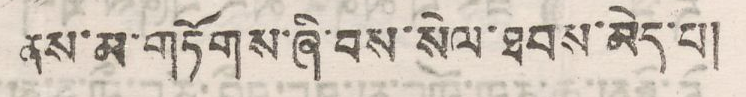ནས་མ་གཏོགས་ཞི་བས་སེལ་ཐབས་མེད་པ།
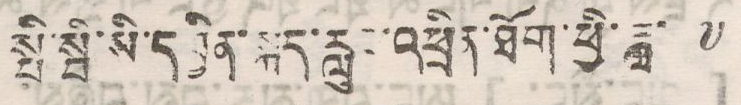སྤི་སྦི་སི་དབྱིན་སྐད་རླུང་འཕྲིན་ཐོག་ཕྱི་ཟླ་ ༧
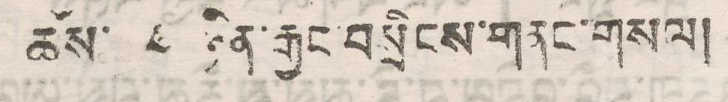ཚེས་ ༨ ཉིན་རྒྱང་བསྲིངས་གནང་གསལ།
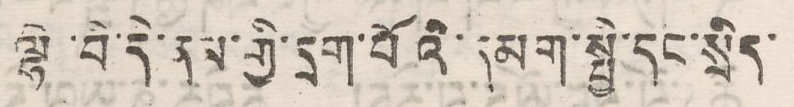ལྷེ་བི་དེ་ནམ་གྱི་དྲག་པོའི་དམག་སྤྱི་དང་སྲིད་
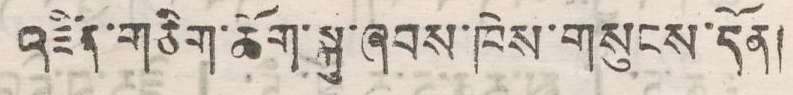འཛིན་གཅིག་ཆོག་སྐུ་ཞབས་ཁེས་གསུངས་དོན།
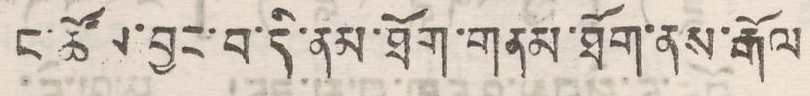ང་ཚོས་བྱང་བ་དི་ནམ་ཐོག་གནམ་ཐོག་ནས་རྒོལ
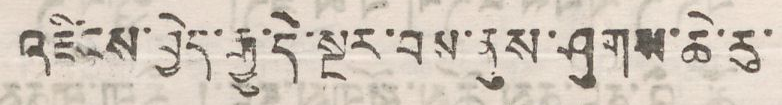འཛིངས་བྱེད་རྒྱུ་དེ་སྔར་བས་ནུས་ཤུགས་ཆེ་རུ་
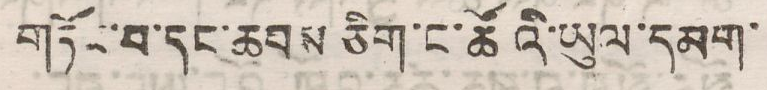གཏོང་བ་དང་ཆབས ཅིག་ང་ཚོའི་ཡུལ་དམག་
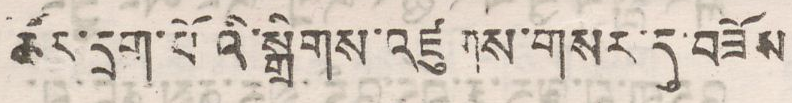ཚོར་དྲག་པོའི་སྒྲིགས་འཛུགས་གསར་དུ་བཟོས
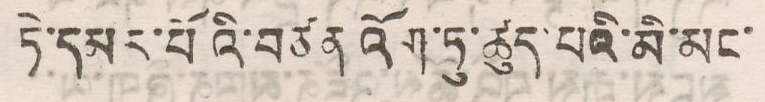ཏེ་དམར་པོའི་བཙན འོག་ཏུ་ཚུད་པའི་མི་མང་
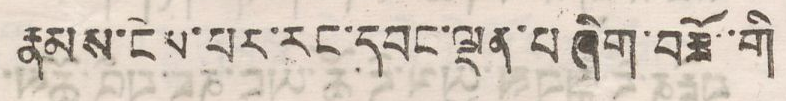རྣམས་ངེས་པར་རང་དབང་ལྡན་པ ཞིག་བཟོ་གི
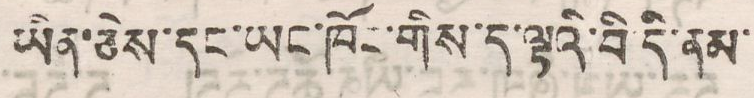ཡིན་ཅེས་དང་ཡང་ཁོང་གིས་ད་ལྟའི་བི དི་ནམ་
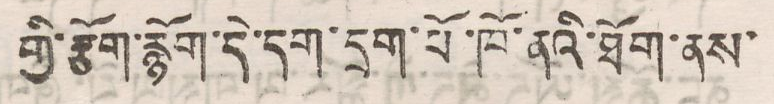གྱི་རྩོག་རྙོག་དེ་དག་དྲག་པོ་ཁོ་ནའི་ཐོག་ནས་
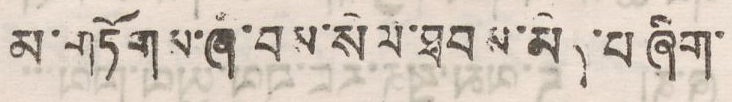མ་གཏོགས་ཞི་བས་སེལ་ཐབས་མེད་པ ཞིག་
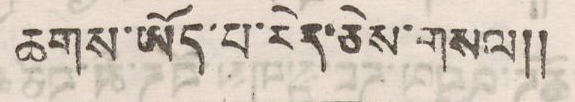ཆགས་ཡོད་པ་རེད་ཅེས་གསལ།།
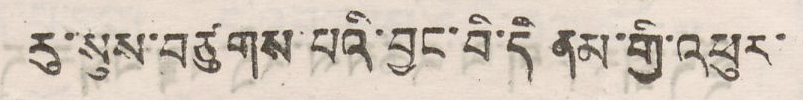རུ་སུས་བཙུགས་པའི་བྱང་བི་དི ནམ་གྱི་འཕུར་
